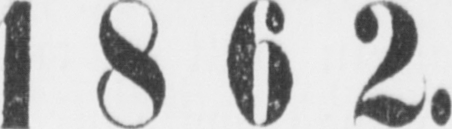1862.
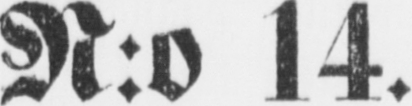N:o 14.
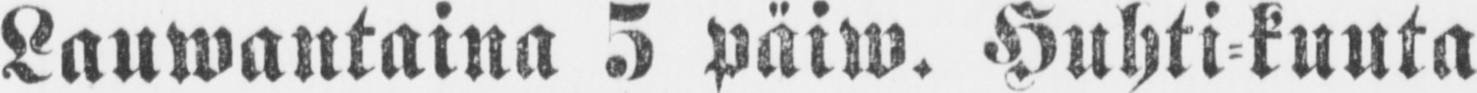Lauwantaina 5 päiw. Huhti-kuuta
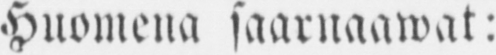Huomena saarnaawat:
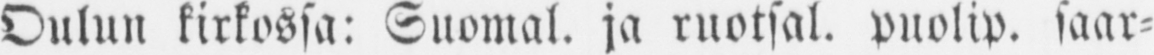Oulun kirkossa: Suomal. ja ruotsal. puolip. saar-
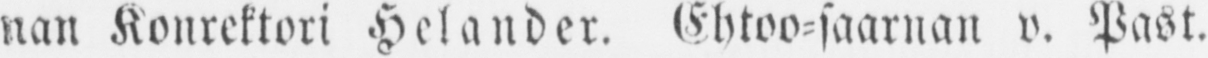nan Konrektori Helander, Ehtoo-saarnan v. Past.
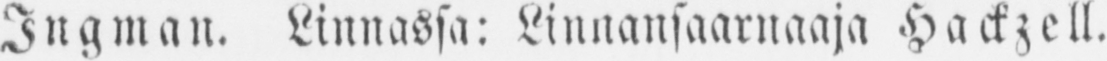Ingman. Linnassa: Linnansaarnaaja Hackz ell.
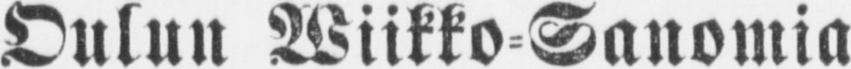Oulun Wiikko Sanomia
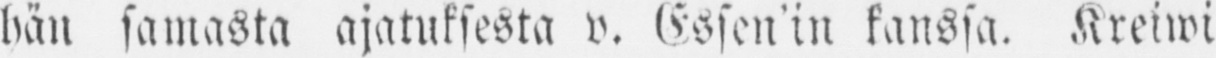hän samasta ajatuksesta v. Essen'in kanssa. Kreiwi
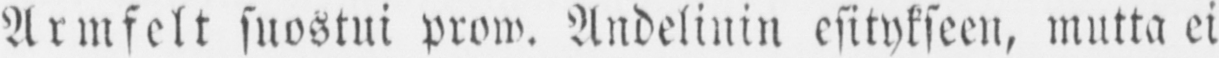Armfelt suostui prow. Andelinin esitykseen, mutta ei
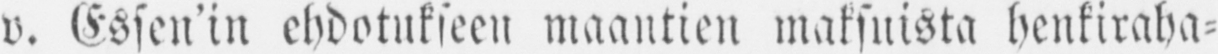v. Essen'in ehdotukseen maantien maksuista henkiraha-
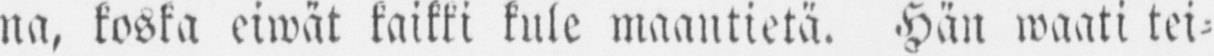na, koska eiwät kaikki kule maantietä. Hän waati tei-
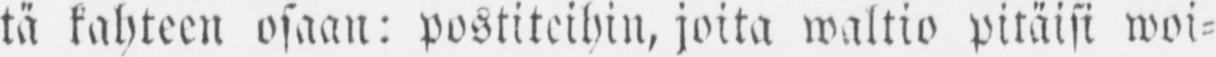tä kahteen osaan: postiteihin, joita waltio pitäisi woi-
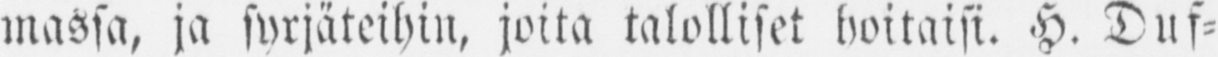massa, ja syrjäteihin, joita talolliset hoitaisi. H. Duf-
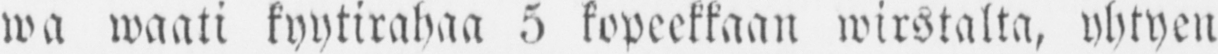wa waati kyytirahaa 5 kopeekkaan wirstalta, yhtyen
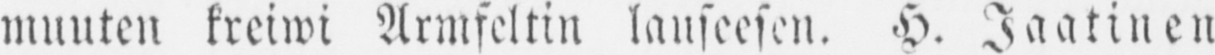muuten kreiwi Armfeltin lauseesen. H. Jaatinen
